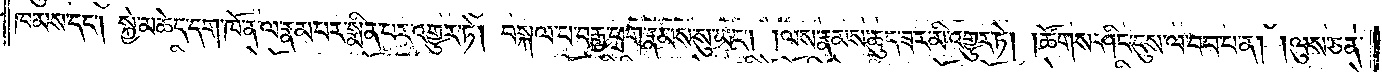ཁམས་དང༌། སྐྱེ་མཆེད་དག་ཁོ་ན་ལ་རྣམ་པར་སྨིན་པར་འགྱུར་ཏེ། བསྐལ་པ་བརྒྱ་ཕྲག་རྣམས་སུ་ཡང༌། ལས་རྣམས་ཆུད་ཟར་མི་འགྱུར་ཏེ། །ཚོགས་ཤིང་དུས་ལ་བབ་པ་ན། །ལུས་ཅན་
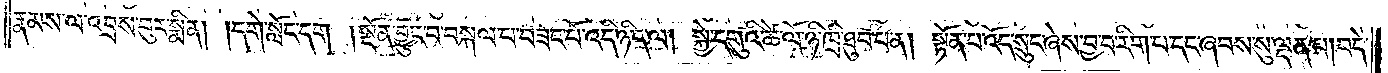རྣམས་ལ་འབྲས་བུར་སྨིན། །དགེ་སློང་དག །སྔོན་བྱུང་བ་བསྐལ་པ་བཟང་པོ་འདི་ཉིད་ལ། སྐྱེ་དགུའི་ཚེ་ལོ་ཉི་ཁྲི་ཐུབ་པ་ན། སྟོན་པ་འོད་སྲུང་ཞེས་བྱ་བ་རིག་པ་དང་ཞབས་སུ་ལྡན་པ། བདེ་
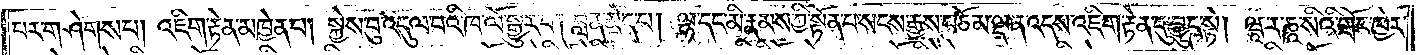པར་གཤེགས་པ། འཇིག་རྟེན་མཁྱེན་པ། སྐྱེས་བུ་འདུལ་བའི་ཁ་ལོ་སྒྱུར་བ། བླན་མེད་པ། ལྷ་དང་མི་རྣམས་ཀྱི་སྟོན་པ་སངས་རྒྱས་བཅོམ་ལྡན་འདས་འཇིག་རྟེན་དུ་བྱུང་སྟེ། ཝཱ་ར་ཎཱ་སའི་གྲོང་ཁྱེར་
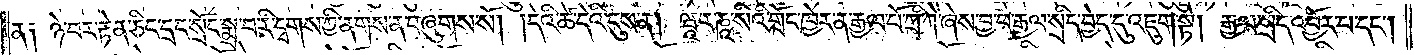ན༑ ཉེ་བར་རྟེན་ཅིང་དྲང་སྲོང་སྨྲ་བ་རི་དྭགས་ཀྱི་ནགས་ན་བཞུགས་སོ། །དེའི་ཚེ་དེའི་དུས་ན། ཝཱ་ར་ཎཱ་སིའི་གྲོང་ཁྱེར་ན་རྒྱལ་པོ་ཀྲི་ཀྲི་ཞེས་བྱ་བ་རྒྱལ་སྲིད་བྱེད་དུ་འཇུག་སྟེ། རྒྱལ་སྲིད་འབྱོར་པ་དང༌།
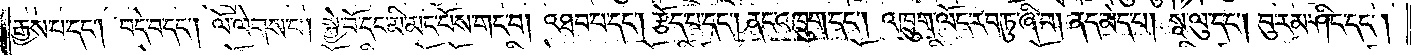རྒྱས་པ་དང༌། བདེ་བ་དང༌། ལོ་ལེགས་པ། སྐྱེ་བོ་དང་མི་མང་པོས་གང་བ། འཐབ་པ་དང༌། རྩོད་པ་དང༌། ནང་འཁྲུག་དང༌། འཁྲུག་ལོང་རབ་ཏུ་ཞི་བ། ནད་མེད་པ། སཱ་ལུ་དང༌། བུ་རམ་ཤིང་དང༌།
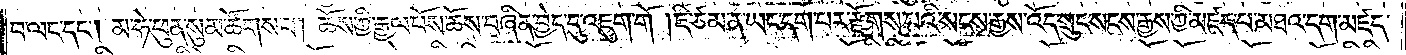བ་ལང་དང༌། མ་ཧེ་ཕུན་སུམ་ཚོགས་པ། ཆོས་ཀྱི་རྒྱལ་པོས་ཆོས་བཞིན་བྱེད་དུ་འཇུག་གོ །ཇི་ཙམ་ན་ཡང་དག་པར་རྫོགས་པའི་སངས་རྒྱས་འོད་སྲུང་སངས་རྒྱས་ཀྱི་མཛད་པ་མཐའ་དག་མཛད་
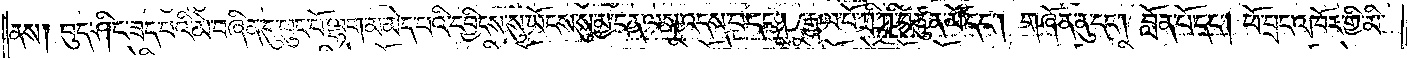ནས། བུད་ཤིང་ཟད་པའི་མེ་བཞིན་དུ་ཕུང་པོ་ལྷག་མ་མེད་པའི་དབྱིངས་སུ་ཡོངས་སུ་མྱ་ངན་ལས་འདས་པ་དང༌། རྒྱལ་པོ་ཀྲི་ཀྲི་བཙུན་མོ་དང༌། གཞོན་ནུ་དང༌། བློན་པོ་དང༌། ཕོ་བྲང་འཁོར་གྱི་མི་
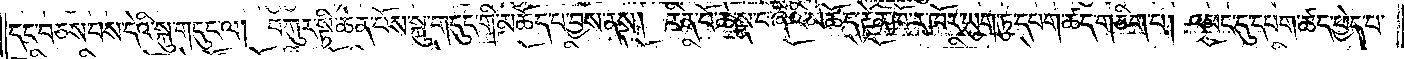དང་བཅས་པས་དེའི་སྐུ་གདུང་ལ། བཀུར་སྟི་ཆེན་པོས་སྐུ་གདུང་གི་མཆོད་པ་བྱས་ནས། རིན་པོ་ཆེ་སྣ་བཞིའི་མཆོད་རྟེན་ཁོ་ར་ཁོར་ཡུག་ཏུ་དཔག་ཚད་གཅིག་པ། འཕང་དུ་དཔག་ཚད་ཕྱེད་པ་
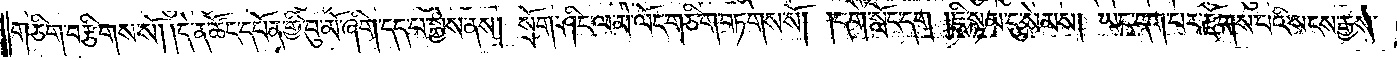གཅིག་བརྩིགས་སོ། །དེ་ན་ཚོང་དཔོན་གྱི་བུ་མོ་ཞིག་དད་པ་སྐྱེས་ནས། སྲོག་ཤིང་ལ་མེ་ལོང་གཅིག་བཏགས་སོ། །དགེ་སློང་དག། །ཇི་སྙམ་དུ་སེམས། ཡང་དག་པར་རྫོགས་པའི་སངས་རྒྱས་
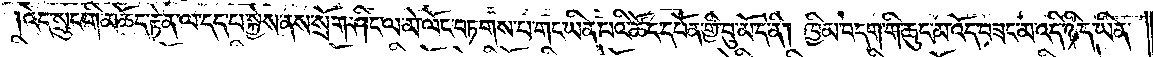འོད་སྲུང་གི་མཆོད་རྟེན་ལ་དད་པ་སྐྱེས་ནས་སྲོག་ཤིང་ལ་མེ་ལོང་བཏགས་པ་གང་ཡིན་པའི་ཚོང་དཔོན་གྱི་བུ་མོ་དེ་ནི། ཁྱིམ་བདག་གི་ཆུང་མ་འོད་བཟང་མ་འདི་ཉིད་ཡིན་
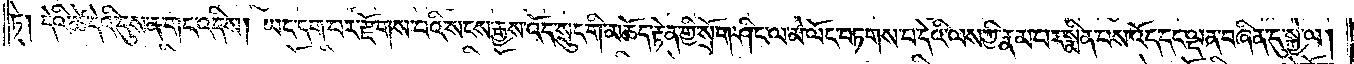ཏེ། དེའི་ཚེ་དེའི་དུས་ན་གང་འདིས། ཡང་དག་པར་རྫོགས་པའི་སངས་རྒྱས་འོད་སྲུང་གི་མཆོད་རྟེན་གྱི་སྲོག་ཤིང་ལ་མེ་ལོང་བཏགས་པ་དེའི་ལས་ཀྱི་རྣམ་པར་སྨིན་པས་འོད་དང་ལྡན་བཞིན་དུ་སྐྱེ་ལ།
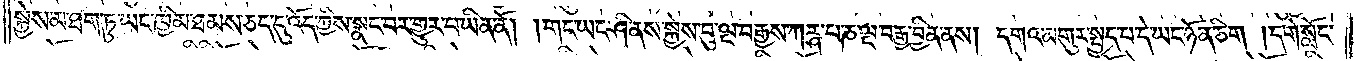སྐྱེས་མ་ཐག་ཏུ་ཡང་ཁྱིམ་ཐམས་ཅད་དུ་འོད་ཀྱིས་སྣང་བར་གྱུར་པ་ཡིན་ནོ། །གང་ཡང་ཤི་ནས་སྐྱེས་བུ་ལྔ་བརྒྱས་ཀཪྴ་པ་ཎ་ལྔ་བརྒྱ་བྱིན་ནས། དགའ་མགུར་སྤྱད་པ་དེ་ཡང་ཉོན་ཅིག །དགེ་སློང་
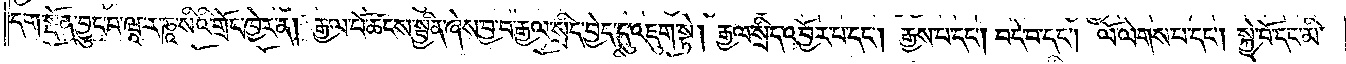དག་སྔོན་བྱུང་བ་ཝཱ་ར་ཎཱ་སིའི་གྲོང་ཁྱེར་ན། རྒྱལ་པོ་ཚངས་སྦྱིན་ཞེས་བྱ་བ་རྒྱལ་སྲིད་བྱེད་དུ་འཇུག་སྟེ། རྒྱལ་སྲིད་འབྱོར་པ་དང༌། རྒྱས་པ་དང༌། བདེ་བ་དང༌། ལོ་ལེགས་པ་དང༌། སྐྱེ་བོ་དང་མི་
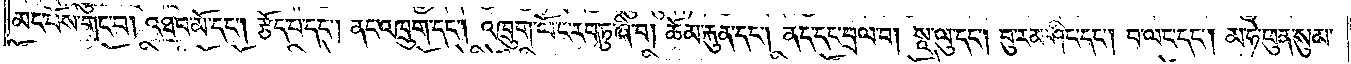མང་པོས་གང་བ། འཐབ་མོ་དང༌། རྩོད་པ་དང༌། ནང་འཁྲུག་དང༌། འཁྲུག་ལོང་རབ་ཏུ་ཞི་བ། ཆོམ་རྐུན་དང༌། ནད་དང་བྲལ་བ། སཱ་ལུ་དང༌། བུ་རམ་ཤིང་དང༌། བ་ལང་དང༌། མ་ཧེ་ཕུན་སུམ་
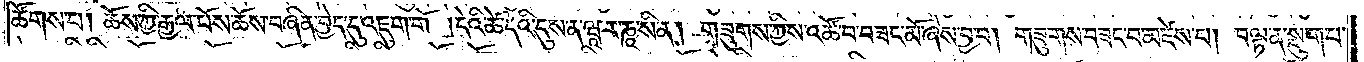ཚོགས་པ། ཆོས་ཀྱི་རྒྱལ་པོས་ཆོས་བཞིན་བྱེད་དུ་འཇུག་གོ །དེའི་ཚེ་དེའི་དུས་ན་ཝཱ་ར་ཎཱ་སི་ན། གཟུགས་ཀྱིས་འཚོ་བ་བཟང་མོ་ཞེས་བྱ་བ། གཟུགས་བཟང་བ་མཛེས་པ། བལྟ་ན་སྡུག་པ་
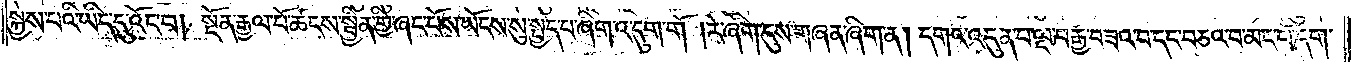སྐྱེས་པའི་ཡིད་དུ་འོང་བ། སྔོན་རྒྱལ་པོ་ཚངས་སྦྱིན་གྱི་ཞང་པོས་ཡོངས་སུ་སྤྱད་པ་ཞིག་འདུག་གོ །རེ་ཞིག་དུས་གཞན་ཞིག་ན། དགའ་འདུན་པ་ལྔ་བརྒྱ་བཟའ་བ་དང་བཅའ་བ་མང་པོ་དག་
